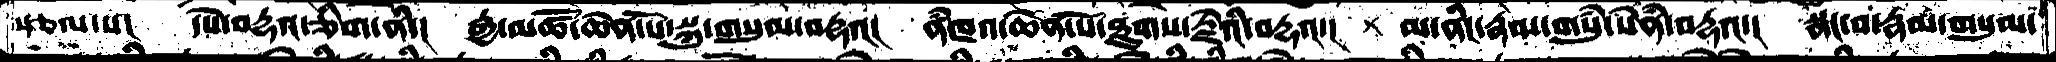སྩལ་པ།   དཔེ་བདྷའ་ཅིག་ནི་།   རྒྱ་མཚོ་ཆེན་པོ་སྐུ་གསུམ་བརྡའ།  ནཾཁའ་ཆེན་པོ་ཐུགས་རྗེའི་བརྡའ་།   མ་ནིང་རྣམ་གསུཾ་སེཾན་བརྡའ་།  སྣང་བ་རྣམ་གསུམ་
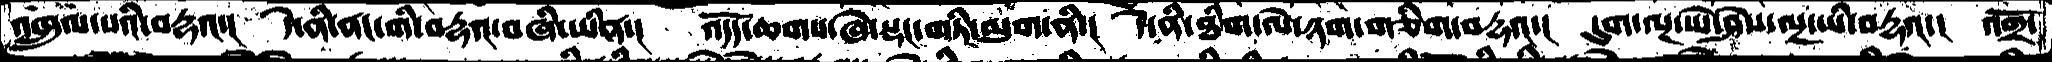འཁྲུལ་པའི་བརྡའ་།   དེ་ནི་ནང་གི་བདྷའ་བཞི་ཡིན་།  འདོད་ཆགས་ཞེ་སྡང་གཏི་མུག་ནི་།  དེ་ནི་ཐིག་ལེ་ཉག་གཅིག་བརྡའ་།   དུག་ལྔ་ཡེ་ཤེས་ལྔ་ཡི་བརྡའ་།   འགྲོ་
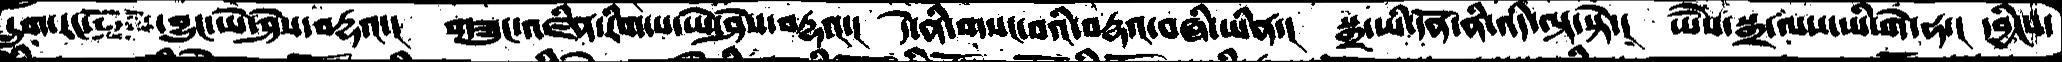དྲུག་རང་   བྱུང་ཡེ་ཤེས་བརྡའ་།   གཟུང་འཛིན་རིག་པ་ཡེ་ཤེས་བརྡའ་།  དེ་ནི་གསང་བའི་བརྡའ་བཞི་ཡིན་།  སྒྲ་ཡི་དོན་ནི་འདི་ལྟ་སྟེ་།  ཡཻས་སྒྲ་ལས་ཡི་གེ་ན་།  དབྱིངས་
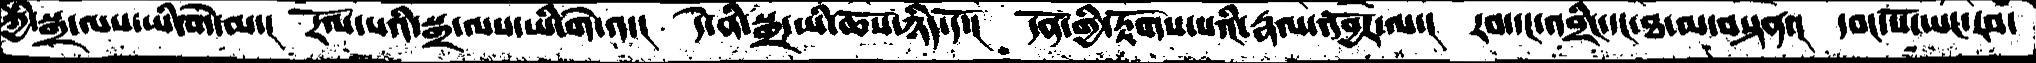ཀྱི་སྒྲ་ལས་ཡི་གེ་མ་།  རོལ་པའི་སྒྲ་ལས་ཡི་གེ་༡་།  དེ་ནི་སྒྲ་ཡི་ཆོས་ཉིད་དོ་།  དོན་གྱི་རྟོགས་པའི་རྣལ་འབྱོར་ལ་།  རབ་དང་འབྲིང་དང་ཐ་མ་བསྟན་།  དབང་པོ་ཡང་རབ་
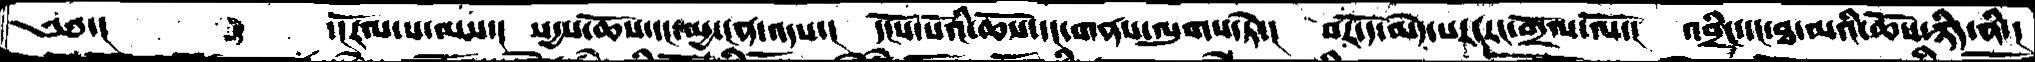༄༅་།       ་།རོལ་པ་ལས་།  སདྱས་ཆོས་དང་མྱ་ངན་འདས་།  དངོས་པོའི་ཆོས་དང་གནས་ལུགས་ཏེ་།  བར་དོ་མེད་པར་རང་གྲོལ་ལོ་།  འབྲིང་དང་ཐ་མའི་ཆོས་ཉིད་ནི་།
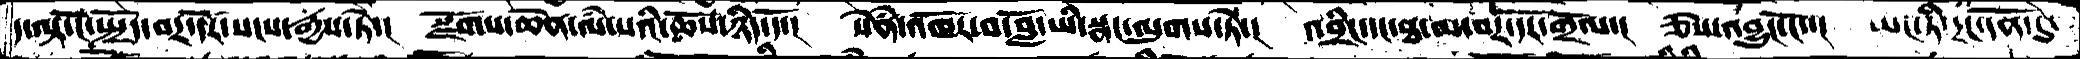ད་ལྟ་ངོ་སྤྲོད་བར་དོར་སངས་རྒྱས་ཏེ་།  སྫོགས་ཆེན་ལཾ་པའི་ཆོས་ཉིད་དོ་།  སེནཾ་འཁོར་བ་བློ་ཡི་སྣང་ལུགས་ཏེ་།  འབྲིང་དང་ཐ་མ་བར་དོར་གྲོལ་།  ཅེས་འབྱུང་ངོ་་།  ཡང་ཏི་དྲང་དོན་དུ་
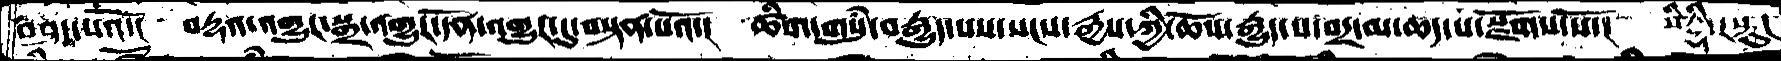བཤད་པའོ་།  བརྡའ་འགྱུར་སྒྲ་འགྱུར་དོན་འགྱུར་དུ་བསྟན་པའོ་།   ཚིག་གསུཾ་བརྒྱུད་པས་སངས་རྒྱས་ཀྱི་ཆོས་རྒྱུད་པ་བར་མ་ཆད་པ་སྫོགས་སོ་།  སིདྡྷི་རསྟུ།
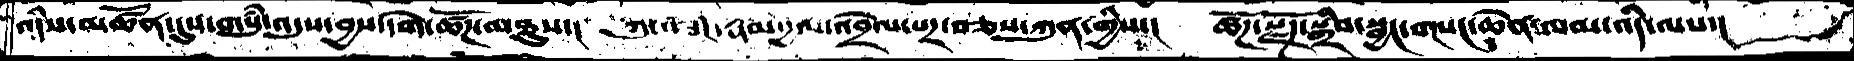འདིས་མཚོན་དུས་གསུཾ་འདུས་བྱས་དགེ་ཚོཌ་མཐུས་།  ཀུན་བཟང་རྣྱམ་དྱལ་འབྲེལ་པར་བཅས་ཀུན་གྱིས་།  ཚོཌ་སྫོཌ་སྒྲིབ་སྦྱང་གསང་ཆེན་ལམ་འདི་ལས་།
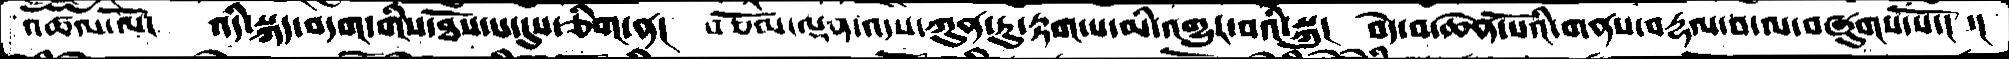འཚལ་ལོ།  འདི་སྐད་བདག་གིས་ཐོས་པ་དུས་ཅིག་ན།  བཅོམ་ལྡན་འདས་ཀུན་ཏུ་རྟགས་མི་འགྱུར་བའི་སྐུ།  བདེ་བ་ཆེན་པོའི་གནས་བདྷལ་བ་ལ་བཞུགས་སོ་།  ་།
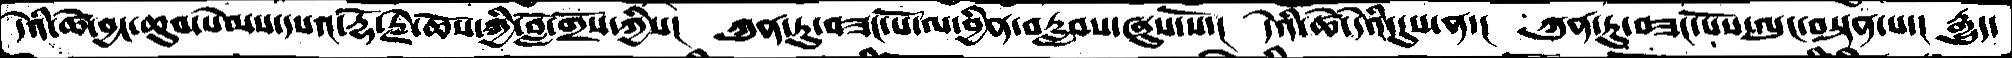དེའི་ཚེ་བྱང་ཆུབ་སེམས་དཔའ་རྡོ་རྗེ་ཆོས་ཀྱི་བློ་གྲོས་ཀྱིས།  ཀུན་ཏུ་བཟང་པོ་ལ་བྱིན་བརླབས་ཞུས་སོ་།  དེའི་ཚེ་དེའི་དུས་ན་།  ཀུན་ཏུ་བཟང་པོས་ལུང་བསྟན་པ་།  རྒྱུད་
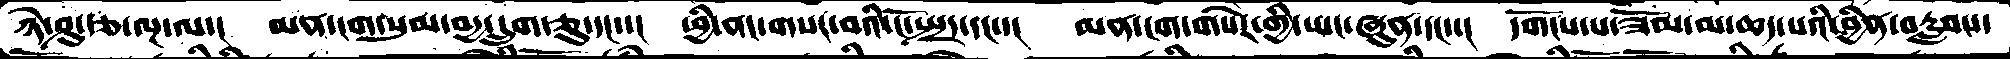ཉེ་ཤུ་རྩ་ལྔ་ལ་།  མན་ངག་སུམ་བདྱ་དྲུག་ཅུ་དང་་།  ཕྱི་ནང་གསང་བའི་ངོ་སྤྲད་དང་་།  མན་ངག་གསེར་གྱི་ཡང་ཞུན་དང་་།  དགོངས་པ་ཟོམ་མ་ཆད་པའི་བྱིན་བརླབས་
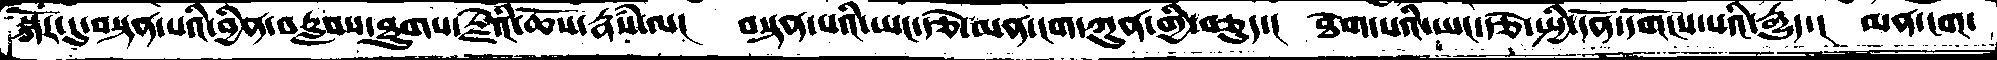སྐོར་དུ་བསྟན་པའི་བྱིན་བརླབས་ཐུགས་རྗེའི་ཆོས་རྣཾས་ལ།   བསྟན་པའི་ཡང་རྩེ་མན་ངག་ཀུན་གྱི་བཅུད་།  ཐེག་པའི་ཡང་རྩེ་སྤྱི་དོན་དགོངས་པའི་རྒྱུད་།  མན་ངག་
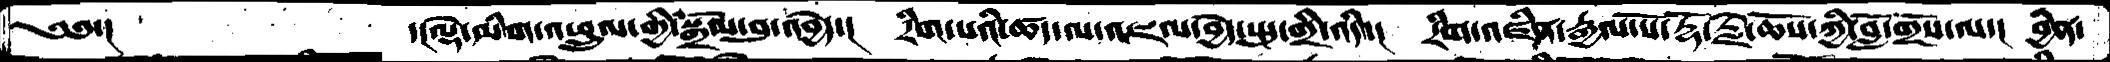༄༅་།            ་།ལྡེ་མིག་འཕྲུལ་གྱི་སྒྲོམ་བུ་འབྱེད་།   རིག་པའི་ཚད་ལ་འཇལ་བྱེད་སྤུ་གྲི་འདི་།  རིག་འཛིན་རྒྱལ་པོ་རྡོ་རྗེ་ཆོས་ཀྱི་བློ་གྲོས་ལ་།  བྱིན་
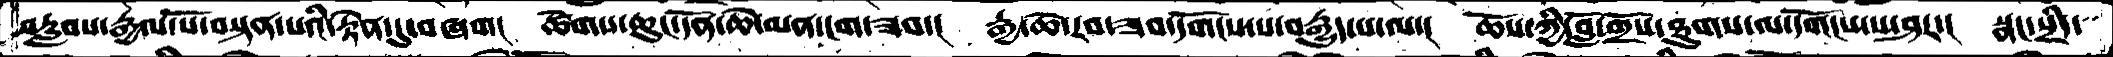བརླབས་རྒྱལ་པོ་བསྟན་པའི་རྟེན་དུ་བཞག།   ཚེགས་ཆུང་དོན་ཆེ་མན་ངག་ཟབ་།   རྒྱ་ཆེ་རབ་ཟབ་དགོངས་པ་བརྒྱུད་པ་ལ་།  ཆོས་ཀྱི་བློ་གྲོས་ཐུགས་ལ་དགོངས་པ་ཤར་།  སྣང་སྲིད་
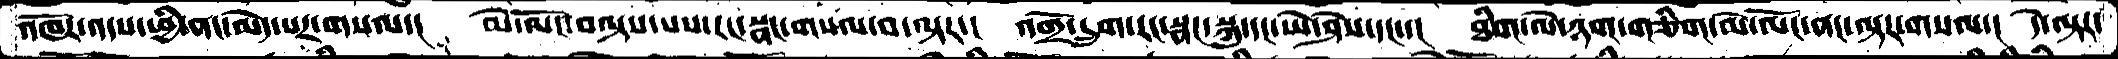འཁོར་འདས་ཕྱི་ནང་མེད་པར་གསལ་།   མེ་ལོང་བལྟས་པས་རང་སྣང་གསལ་བ་ལྟར་།   འགྲོ་དྲུག་རང་སྣང་སྐུ་དང་ཡེ་ཤེས་དང་་།   ཐིག་ལེ་ཉག་གཅིག་མེ་ལོང་ནང་ལྟར་གསལ་།  དེ་ལྟར་
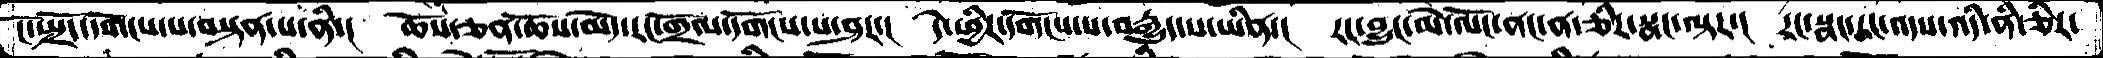ངོ་སྤྲོད་དགོངས་པ་བསྟན་པ་ནི་།   ཆོས་ཅན་ཆོས་མེད་རང་གྲོལ་དགོངས་པ་ཤར་།   དེ་ཕྱིར་དགོངས་པ་བརྒྱུད་པ་ཡིན་།  རང་བྱུང་མེ་ལོང་ནང་ན་ཅིར་སྣང་ལྟར་།  རང་སྣང་རང་འདས་འདི་ནི་ཅིར་
